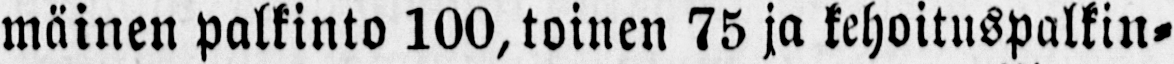mäinen palkinto 100, toinen 75 ja kehoituspalkin-
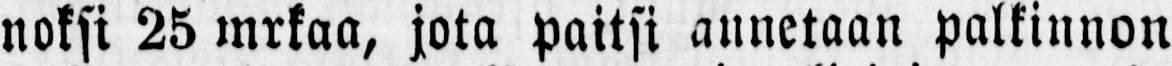noksi 25 mrkaa, jota paitsi annetaan palkinnon
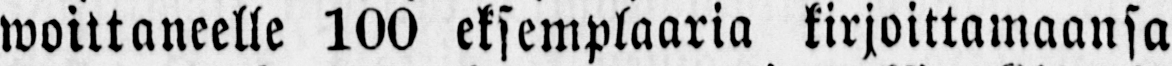woittaneelle 100 eksemplaaria kirjoittamaansa
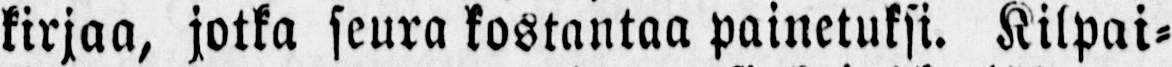kirjaa, jotka seura kostantaa painetuksi. Kilpai-
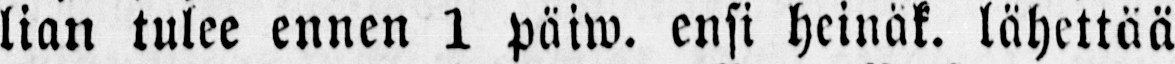lian tulee ennen 1 päiw. ensi heinäk, lähettää
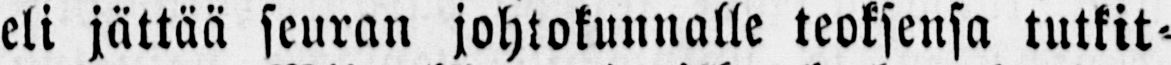eli jättää seuran johtokunnalle teoksensa tutkit-
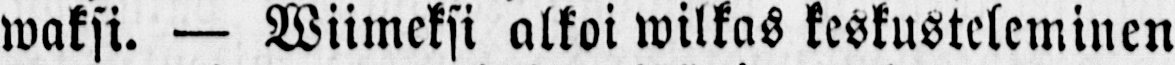waksi. — Wiimeksi alkoi wilkas keskusteleminen
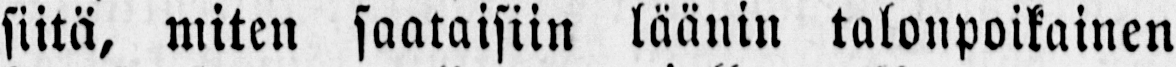siitä, miten saataisiin läänin talonpoikainen
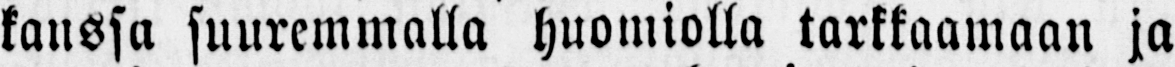kanssa suuremmalla huomiolla tarkkaamaan ja
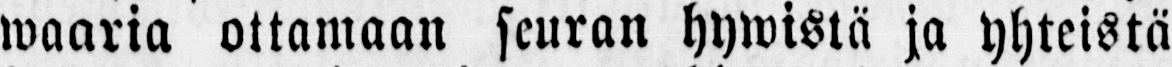waaria ottamaan seuran hywistä ja yhteistä
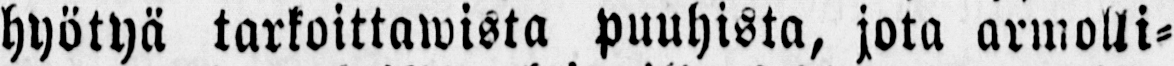hyötyä tarkoittawista puuhista, jota armolli-
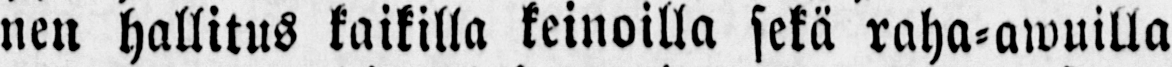nen hallitus kaikilla keinoilla sekä raha-awuilla
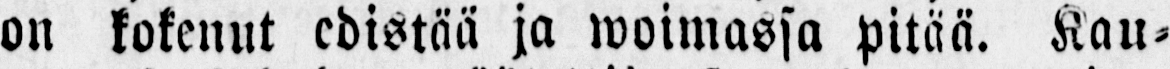on kokenut edistää ja woimassa pitää. Kau-
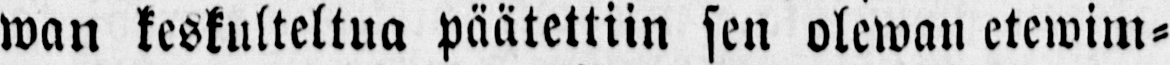wan keskulteltua päätettiin sen olewan etewim-
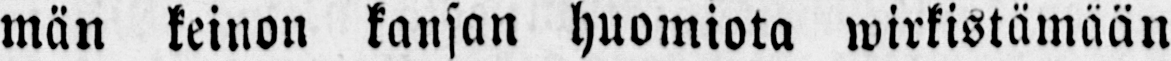män keinon kansan huomiota wirkistämään
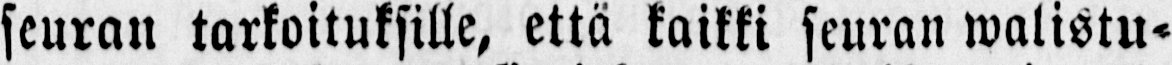seuran tarkoituksille, että kaikki seuran walistu-
